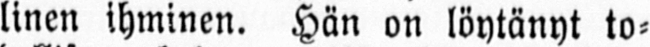linen ihminen. Hän on löytänyt to-
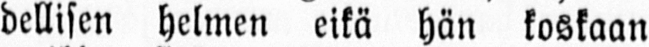dellisen helmen eikä hän koskaan
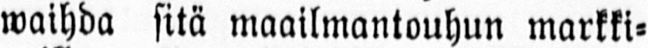waihda sitä maailmantouhun markki-
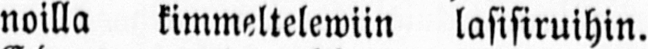noilla kimmeltelewiin lasisiruihin.
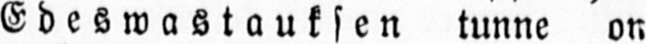Edeswastauksen tunne on
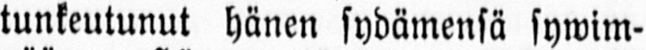tunkeutunut hänen sydämensä sywim-
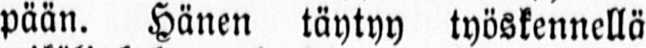pään. Hänen täytyy työskennellä
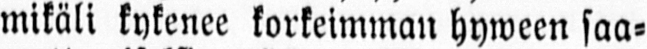mikäli kykenee korkeimman hyween saa-
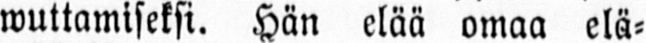wuttamiseksi. Hän elää omaa elä-
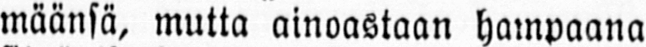määnsä, mutta ainoastaan hampaana
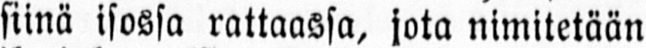siinä isossa rattaassa, jota nimitetään
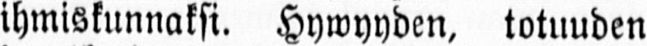ihmiskunnaksi. Hywyyden, totuuden
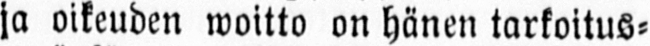ja oikeuden woitto on hänen tarkoitus-
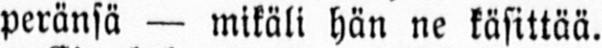peränsä — mikäli hän ne käsittää.
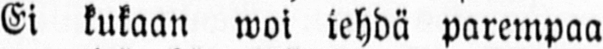Ei kukaan woi tehdä parempaa
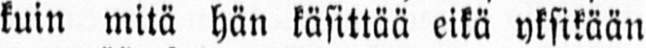kuin mitä hän käsittää eikä yksikään
